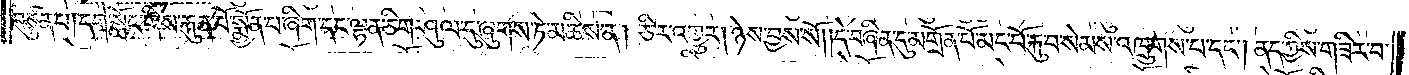བཙུན་པ། དགེ་སློང་གིས་རྐུན་པོ་སྨྱོན་པ་ཞིག་དང་ལྷན་ཅིག་ཤུལ་དུ་ཞུགས་ཏེ་མཆིས་ན། ཅིར་འགྱུར། ཉེས་བྱས་སོ། །དེ་བཞིན་དུ་མགྲོན་པོ་མང་པོ་རྐུ་བ་སེམས་འཁྲུགས་པ་དང༌། ནད་ཀྱིས་གཟིར་བ་
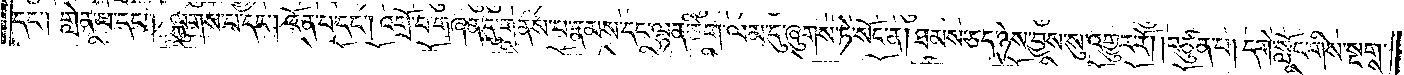དང༌། གླེན་པ་དང༌། ལྐུགས་པ་དང༌། འོན་པ་དང༌། འགྲོ་བ་གཞན་དུ་གནས་པ་རྣམས་དང་ལྷན་ཅིག་ལམ་དུ་ཞུགས་ཏེ་སོང་ན། ཐམས་ཅད་ཉེས་བྱས་སུ་འགྱུར་རོ། །བཙུན་པ། དགེ་སློང་གིས་སྔགས་
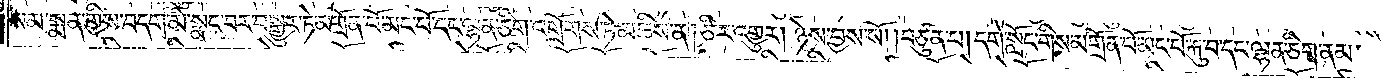སམ་སྨན་གྱིས་བདག་མི་སྣང་བར་བསྒྱུར་ཏེ་མགྲོན་པོ་མང་པོ་དང་ལྷན་ཅིག་འགྲོགས་ཏེ་མཆིས་ན། ཅིར་འགྱུར། ཉེས་བྱས་སོ། །བཙུན་པ། དགེ་སློང་གིས་མགྲོན་པོ་མང་པོ་རྐུ་བ་དང་ལྷན་ཅིག་ནམ་
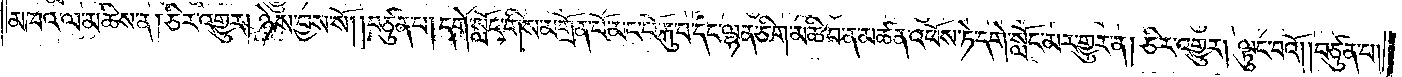མཁའ་ལ་མཆིས་ན། ཅིར་འགྱུར། ཉེས་བྱས་སོ། །བཙུན་པ། དགེ་སློང་གིས་མགྲོན་པོ་མང་པོ་རྐུ་བ་དང་ལྷན་ཅིག་མཆི་བ་ན་མཚན་འཕོས་ཏེ་དགེ་སློང་མར་གྱུར་ན། ཅིར་འགྱུར། ལྟུང་བའོ། །བཙུན་པ་
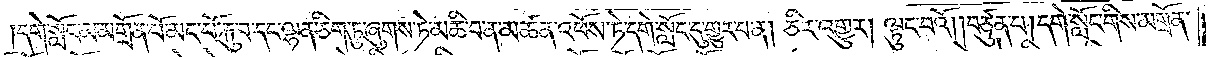དགེ་སློང་མ་མགྲོན་པོ་མང་པོ་རྐུ་བ་དང་ལྷན་ཅིག་ཏུ་ཞུགས་ཏེ་མཆི་བ་ན་མཚན་འཕོས་ཏེ་དགེ་སློང་དུ་གྱུར་པ་ན། ཅིར་འགྱུར། ལྟུང་བའོ། །བཙུན་པ། དགེ་སློང་གིས་མགྲོན་
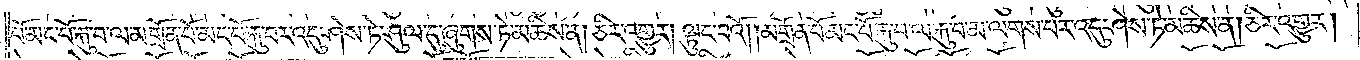པོ་མང་པོ་རྐུ་བ་ལ་མགྲོན་པོ་མང་པོ་རྐུ་བར་འདུ་ཤེས་ཏེ་ཤུལ་དུ་ཞུགས་ཏེ་མཆིས་ན། ཅིར་འགྱུར། ལྟུང་བའོ། །མགྲོན་པོ་མང་པོ་རྐུ་བ་ལ་རྐུ་བ་མ་ལགས་པར་འདུ་ཤེས་ཏེ་མཆིས་ན། ཅིར་འགྱུར།
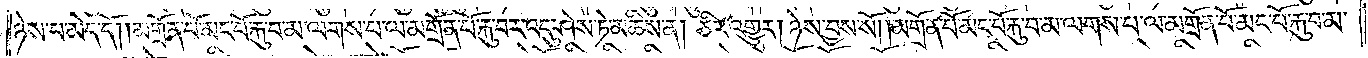ཉེས་པ་མེད་དོ། །མགྲོན་པོ་མང་པོ་རྐུ་བ་མ་ལགས་པ་ལ་མགྲོན་པོ་རྐུ་བར་འདུ་ཤེས་ཏེ་མཆིས་ན། ཅིར་འགྱུར། ཉེས་བྱས་སོ། །མགྲོན་པོ་མང་པོ་རྐུ་བ་མ་ལགས་པ་ལ་མགྲོན་པོ་མང་པོ་རྐུ་བ་མ་
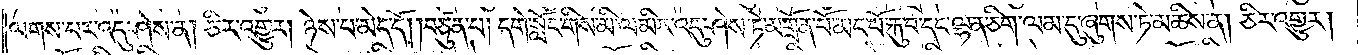ལགས་པར་འདུ་ཤེས་ན། ཅིར་འགྱུར། ཉེས་པ་མེད་དོ། །བཙུན་པ། དགེ་སློང་གིས་མི་ལ་མིར་འདུ་ཤེས་ཏེ་མགྲོན་པོ་མང་པོ་རྐུ་བ་དང་ལྷན་ཅིག་ལམ་དུ་ཞུགས་ཏེ་མཆིས་ན། ཅིར་འགྱུར།
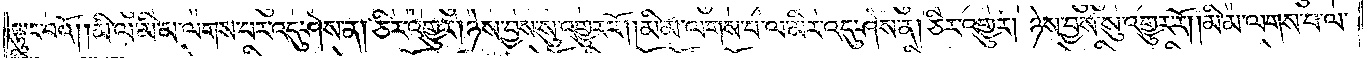ལྟུང་བའོ། །མི་ལ་མི་མ་ལགས་པར་འདུ་ཤེས་ན། ཅིར་འགྱུར། ཉེས་བྱས་སུ་འགྱུར་རོ། །མི་མ་ལགས་པ་ལ་མིར་འདུ་ཤེས་ན། ཅིར་འགྱུར། ཉེས་བྱས་སུ་འགྱུར་རོ། །མི་མ་ལགས་པ་ལ་
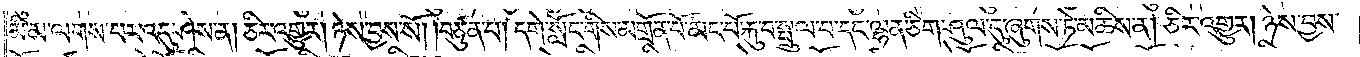མི་མ་ལགས་པར་འདུ་ཤེས་ན། ཅིར་འགྱུར། ཉེས་བྱས་སོ། །བཙུན་པ། དགེ་སློང་གིས་མགྲོན་པོ་མང་པོ་རྐུ་བ་སྤྲུལ་པ་དང་ལྷན་ཅིག་ཤུལ་དུ་ཞུགས་ཏེ་མཆིས་ན། ཅིར་འགྱུར། ཉེས་བྱས་
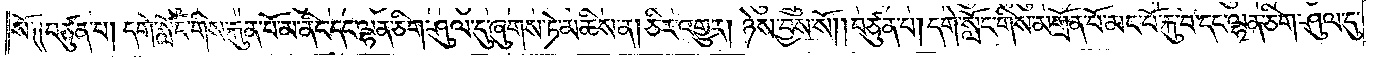སོ༑ ༑བཙུན་པ། དགེ་སློང་གིས་རྐུན་པོ་མ་ནིང་དང་ལྷན་ཅིག་ཤུལ་དུ་ཞུགས་མཆིས་ན། ཅིར་འགྱུར། ཉེས་བྱས་སོ། །བཙུན་པ། དགེ་སློང་གིས་མགྲོན་པོ་མང་པོ་རྐུ་བ་དང་ལྷན་ཅིག་ཤུལ་དུ་
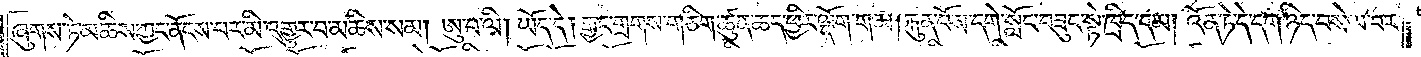ཞུགས་ཏེ་མཆིས་ཀྱང་ནོངས་པར་མི་འགྱུར་བ་མཆིས་སམ། ཨུ་པ་ལི། ཡོད་དེ། རྒྱང་གྲགས་གཅིག་ཚུན་ཆད་ཕྱིར་ལྡོག་གམ། རྐུན་པོས་དགེ་སློང་བཟུང་སྟེ་ཁྲིད་དམ། འོན་དེ་དག་ཉིད་བསེལ་བར་
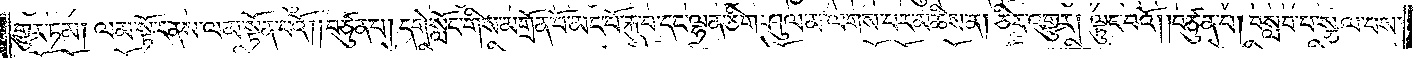གྱུར་ཏམ། ལམ་སྟོར་ནས་ལམ་སྟོན་པའོ། །བཙུན་པ། དགེ་སློང་གིས་མགྲོན་པོ་མང་པོ་རྐུ་བ་དང་ལྷན་ཅིག་ཤུལ་མ་ལགས་པར་མཆིས་ན། ཅིར་འགྱུར། ལྟུང་བའོ། །བཙུན་པ་དང༌། བསླབ་པ་སྩལ་པས་
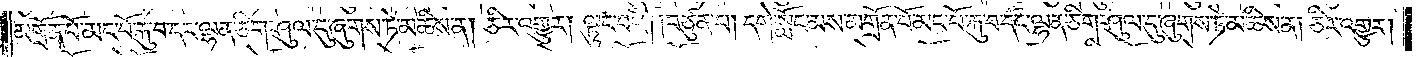མགྲོན་པོ་མང་པོ་རྐུ་བ་དང་ལྷན་ཅིག་ཤུལ་དུ་ཞུགས་ཏེ་མཆིས་ན། ཅིར་འགྱུར། ལྟུང་བའོ། །བཙུན་པ། དགེ་སློང་མས་མགོན་པོ་མང་པོ་རྐུ་བ་དང་ལྷན་ཅིག་ཤུལ་དུ་ཞུགས་མཆིས་ན། ཅིར་འགྱུར།
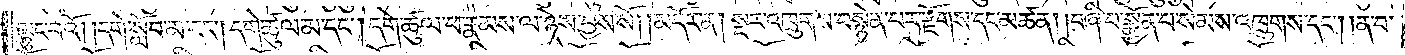ལྟུང་བའོ། །དགེ་སློབ་མ་དང༌། དགེ་ཚུལ་མ་དང༌། དགེ་ཚུལ་ཕ་རྣམས་ལ་ཉེས་བྱས་སོ།    །མདོར་ན། སྔར་འཁྲུགས་བསྙེན་པར་རྫོགས་དང༌། མཚན། །བཞི་པ་སྨྱོན་པ་སེམས་འཁྲུགས་དང༌། །ན་བ་
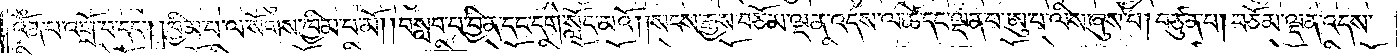འོན་པ་འགྲོ་བ་དང༌། །ཁྱིམ་པ་ལ་སོགས་ཁྱིམ་པ་མོ། །བསླབ་པ་བྱིན་དང་དགེ་སློང་མའོ། །སངས་རྒྱས་བཅོམ་ལྡན་འདས་ལ་ཚེ་དང་ལྡན་པ་ཨུ་པ་ལིས་ཞུས་པ། བཙུན་པ། བཅོམ་ལྡན་འདས་
